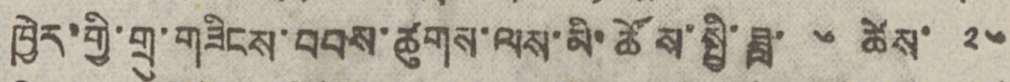ཁྱེར་གྱི་གྲུ་གཟིངས་བབས་ཚུགས་ལས་མི་ཚོས་སྤྱི་ཟླ་ ༦ ཚེས་ ༢༦
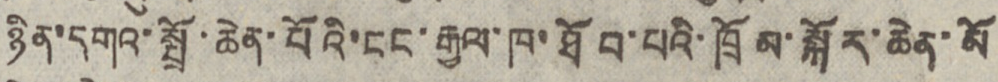ཉིན་དགའ་སྤྲོ་ཆེན་པོའི་ངང་རྒྱལ་ཁ་ཐོབ་པའི་ཁྲོམ་སྐོར་ཆེན་མོ
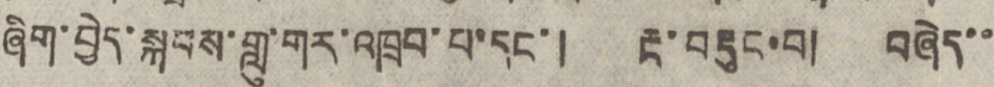ཞིག་བྱེད་སྐབས་གླུ་གར་འཁྲབ་པ་དང་། རྔ་བརྡུང་བ། བཞེད་་
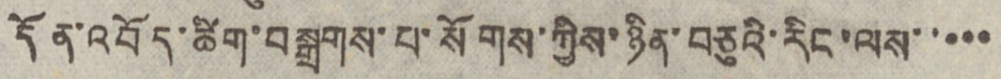དོན་འབོད་ཚིག་བསྒྲགས་པ་སོགས་ཀྱིས་ཉིན་བཅུའི་རིང་ལས་་་་་
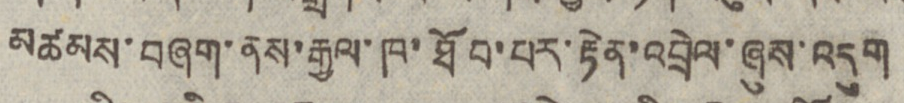མཚམས་བཞག་ནས་རྒྱལ་ཁ་ཐོབ་པར་རྟེན་འབྲེལ་ཞུས་འདུག
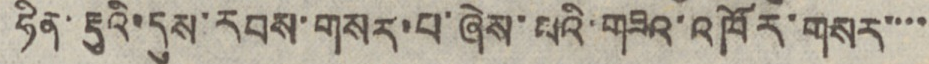ཧིན་རྡུའི་དུས་རབས་གསར་པ་ཞེས་པའི་གཟའ་འཁོར་གསར་་་་
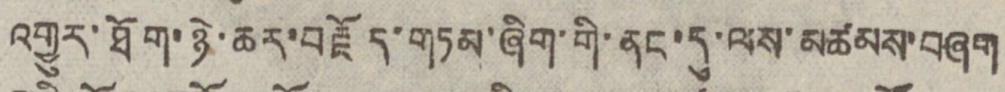འགྱུར་ཐོག་ཉེ་ཆར་བརྗོད་གཏམ་ཞིག་གི་ནང་དུ་ལས་མཚམས་བཞག
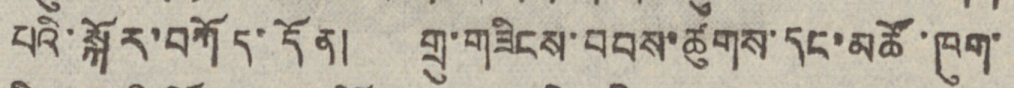པའི་སྐོར་བཀོད་དོན། གྲུ་གཟིངས་བབས་ཚུགས་དང་མཚོ་ཁུག་
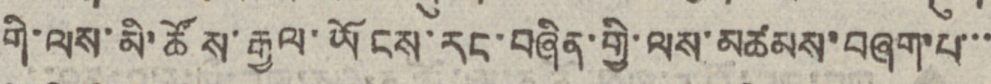གི་ལས་མི་ཚོས་རྒྱལ་ཡོངས་རང་བཞིན་གྱི་ལས་མཚམས་བཞག་པ་་་
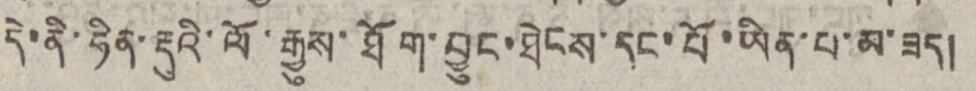དེ་ནི་ཧིན་རྡུའི་ལོ་རྒྱུས་ཐོག་བྱུང་ཐེངས་དང་པོ་ཡིན་པ་མ་ཟད།
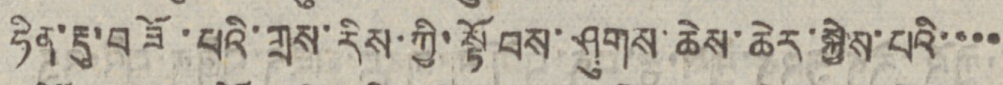ཧིན་རྡུ་བཟོ་པའི་གྲས་རིས་ཀྱི་སྟོབས་ཤུགས་ཆེས་ཆེར་སྐྱེས་པའི་་་་
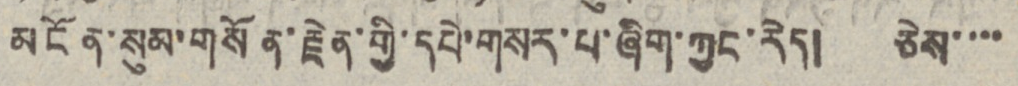མངོན་སུམ་གསོན་རྗེན་གྱི་དཔེ་གསར་པ་ཞིག་ཀྱང་རེད། ཅེས་་་་
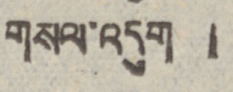གསལ་འདུག །
